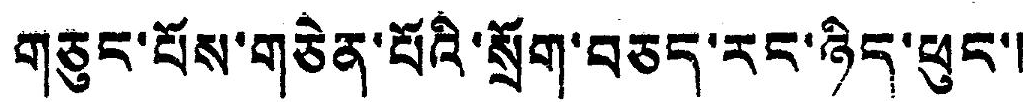གཅུང་པོས་གཅེན་པོའི་སྲོག་བཅད་རང་ཉིད་ཕུང་།
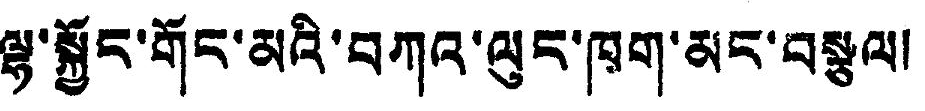ལྷ་སྐྱོང་གོང་མའི་བཀའ་ལུང་ཁག་མང་བསྩལ།
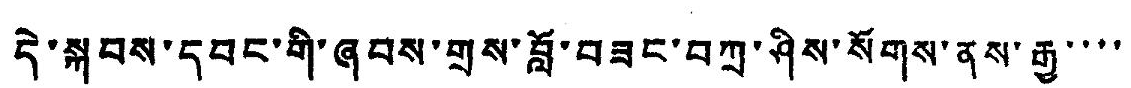དེ་སྐབས་དབང་གི་ཞབས་གྲས་བློ་བཟང་བཀྲ་ཤིས་སོགས་ནས་རྒྱ་་་
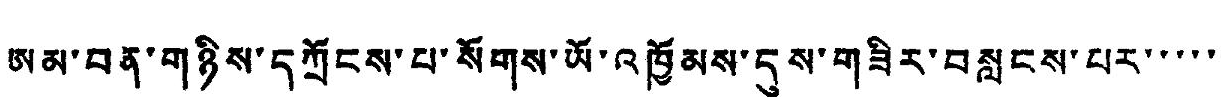ཨམ་བན་གཉིས་དཀྲོངས་པ་སོགས་ཡོ་འཁྱོམས་དུས་གཟིར་བསླངས་པར་་་་་
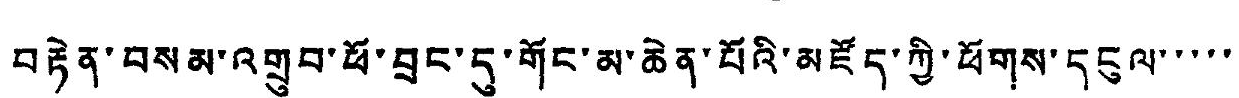བརྟེན་བསམ་འགྲུབ་ཕོ་བྲང་དུ་གོང་མ་ཆེན་པོའི་མཛོད་ཀྱི་ཕོགས་དངུལ་་་་་
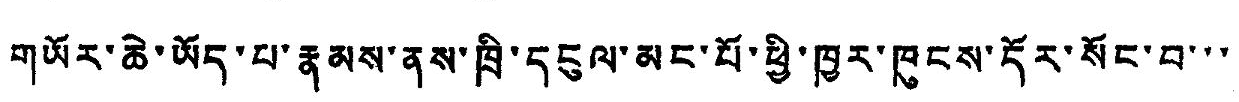གཡོར་ཆེ་ཡོད་པ་རྣམས་ནས་ཁྲི་དངུལ་མང་པོ་ཕྱི་ཁྱར་ཁུངས་དོར་སོང་བ་་་
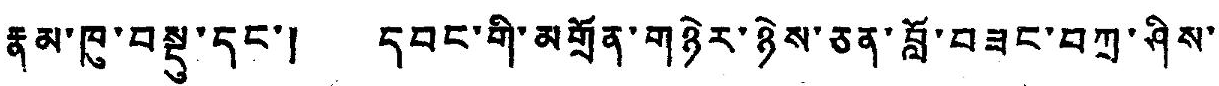རྣམ་ཁུ་བསྡུ་དང་། དབང་གི་མགྲོན་གཉེར་ཉེས་ཅན་བློ་བཟང་བཀྲ་ཤིས་
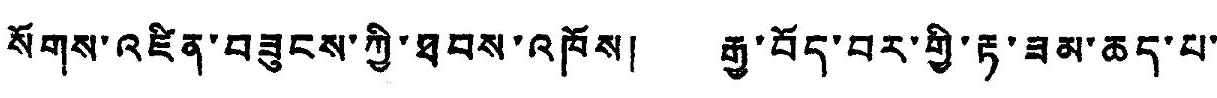སོགས་འཛིན་བཟུངས་ཀྱི་ཐབས་འཁོས། རྒྱ་བོད་བར་གྱི་རྟ་ཟམ་ཆད་པ་
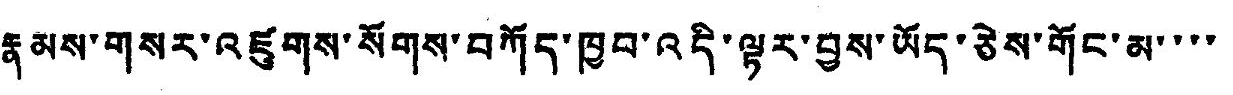རྣམས་གསར་འཛུགས་སོགས་བཀོད་ཁྱབ་འདི་ལྟར་བྱས་ཡོད་ཅེས་གོང་མ་་་་
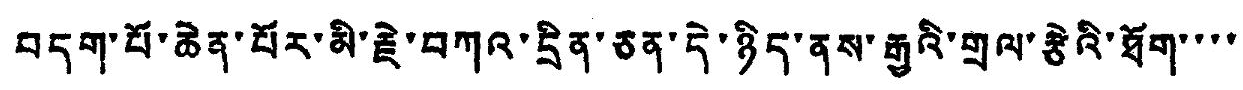བདག་པོ་ཆེན་པོར་མི་རྗེ་བཀའ་དྲིན་ཅན་དེ་ཉིད་ནས་རྒྱའི་གྲལ་རྩེའི་ཐོག་་་་
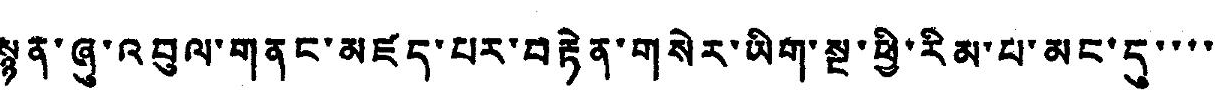སྙན་ཞུ་འབུལ་གནང་མཛད་པར་བརྟེན་གསེར་ཡིག་སྔ་ཕྱི་རིམ་པ་མང་དུ་་་་
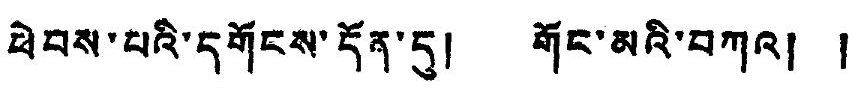ཕེབས་པའི་དགོངས་དོན་དུ། གོང་མའི་བཀའ། །
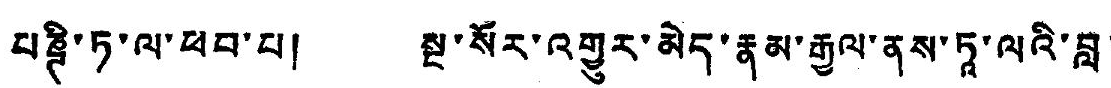པཎྚི་ཏ་ལ་ཕབ་པ། སྔ་སོར་འགྱུར་མེད་རྣམ་རྒྱལ་ནས་ཏཱ་ལའི་བླ་
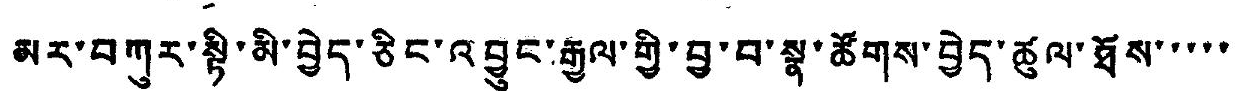མར་བཀུར་སྟི་མི་བྱེད་ཅིང་འབྱུང་རྒྱལ་གྱི་བྱ་བ་སྣ་ཚོགས་བྱེད་ཚུལ་ཐོས་་་་་
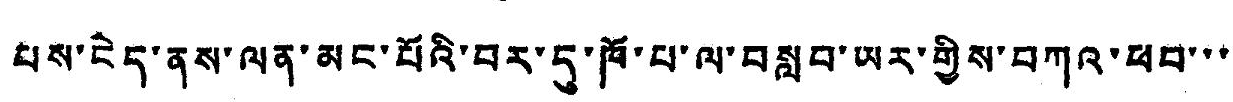པས་ངེད་ནས་ལན་མང་པོའི་བར་དུ་ཁོ་པ་ལ་བསླབ་ཡར་གྱིས་བཀའ་ཕབ་་་
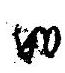40
